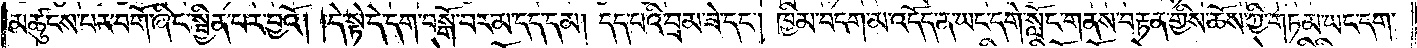མཚུངས་པར་བགོ་ཞིང་སྦྱིན་པར་བྱའོ། །དེ་སྟེ་དེ་དག་བསྒོ་བར་མ་དད་དམ། དད་པའི་བྲམ་ཟེ་དང༌། ཁྱིམ་བདག་མ་འདོད་ན་ཡང་དགེ་སློང་གནས་བརྟན་གྱིས་ཆོས་ཀྱི་གཏམ་ཡང་དག་
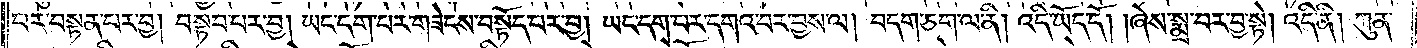པར་བསྟན་པར་བྱ། བསྟབ་པར་བྱ། ཡང་དག་པར་གཟེངས་བསྟོད་པར་བྱ། ཡང་དག་པར་དགའ་བར་བྱས་ལ། བདག་ཅག་ལ་ནི། འདི་ཡོད་དོ། །ཞེས་སྨྲ་བར་བྱ་སྟེ། འདི་ནི། ཀུན་
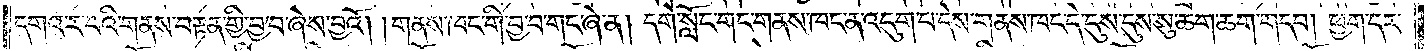དགའ་ར་བའི་གནས་བརྟན་གྱི་བྱ་བ་ཞེས་བྱའོ། །གནས་ཁང་གི་བྱ་བ་གང་ཞེ་ན། དགེ་སློང་གང་གནས་ཁང་ན་འདུག་པ་དེས་གནས་ཁང་དེ་དུས་དུས་སུ་ཆག་ཆག་གདབ། ཕྱག་དར་
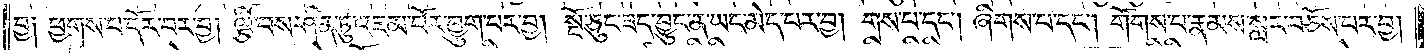བྱ༑ ཕྱགས་པ་དོར་བར་བྱ། ལྕི་བས་ཤིན་ཏུ་འཇམ་པོར་བྱུག་པར་བྱ། སྔོ་ཅུང་ཟད་བྱུང་ན་ཡང་མེད་པར་བྱ། གས་པ་དང༌། ཞིགས་པ་དང༌། གོགས་པ་རྣམས་སླར་བཅོས་པར་བྱ།
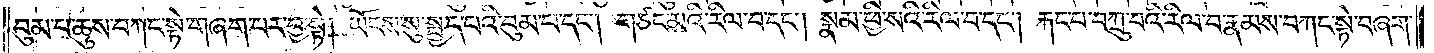བུམ་པ་ཆུས་བཀང་སྟེ་གཞག་པར་བྱ་སྟེ། ཡོངས་སུ་སྤྱད་པའི་བུམ་པ་དང༌། གཙང་མའི་རིལ་བ་དང༌། སྣམ་ཕྱི་སའི་རིལ་བ་དང༌། རྐང་པ་བཀྲུ་བའི་རིལ་བ་རྣམས་བཀང་སྟེ་བཞག་
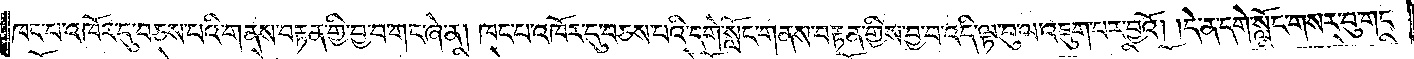པ་དེ་ནི། གནས་ཁང་གི་བྱ་བ་ཞེས་བྱའོ། །གནས་ཁང་གི་གནས་བརྟན་གྱི་བྱ་བ་གང་ཞེ་ན། གནས་ཁང་གི་དགེ་སློང་གནས་བརྟན་གྱིས་བྱ་བ་འདི་ལྟ་བུ་ལ་འཇུག་པར་བྱའོ། ། དེ་ན་དགེ་སློང་གསར་བུ་གང་
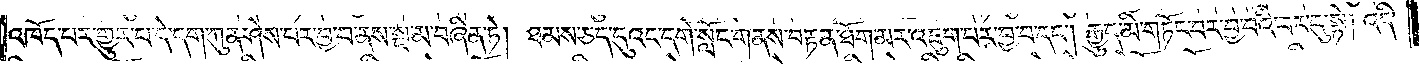དགེ་སློང་གསར་བུ་གང་དེ་ན་འཁོད་པར་གྱུར་པ་དེ་དག་ཤེས་པར་བྱ་བ་ནས་སྔ་མ་བཞིན་ཏེ། དགེ་སློང་གནས་བརྟན་གྱིས་ཐམས་ཅད་ལ་ཐོག་མར་འཇུག་པར་བྱ། རྒྱུད་མི་གཏང་། འདི་
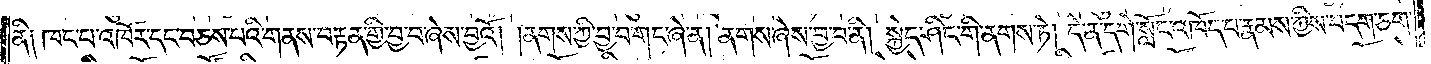ནི། ཁང་པ་འཁོར་དང་བཅས་པའི་གནས་བརྟན་གྱི་བྱ་བ་ཞེས་བྱའོ། །ནགས་ཀྱི་བྱ་བ་གང་ཞེ་ན། ནགས་ཞེས་བྱ་བ་ནི། སྐྱེད་ཤིང་གི་ནགས་ཏེ། དེ་ན་དགེ་སློང་འཁོད་པ་རྣབམས་ཀྱིས་བདག་ཅག་
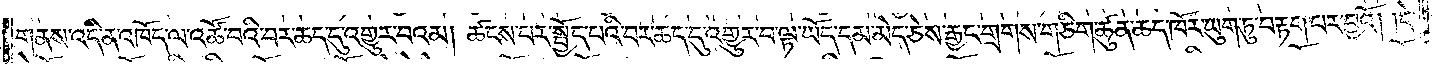གནས་འདི་ན་འཁོད་ལ་འཚོ་བའི་བར་ཆད་དུ་འགྱུར་བའམ། ཚངས་པར་སྤྱོད་པའི་བར་ཆད་དུ་འགྱུར་བ་ལྟ་ཡོད་དམ་མེད་ཅེས་རྒྱང་གྲགས་གཅིག་ཚུན་ཆད་ཁོར་ཡུག་ཏུ་བརྟག་པར་བྱའོ། །དེ་
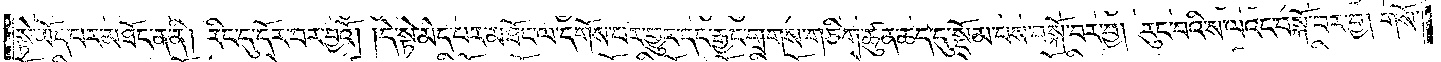སྟེ་ཡོད་པར་མཐོང་ན་ནི། རིང་དུ་དོར་བར་བྱའོ། །དེ་སྟེ་མེད་པར་མཐོང་ལ་དགོས་པར་བྱུང་དང་རྒྱང་གྲགས་གཅིག་ཚུན་ཆད་དུ་སྡོམ་པས་བསྐོ་བར་བྱ། རུང་བའི་ས་ལའང་བསྐོ་བར་བྱ། གསོ་
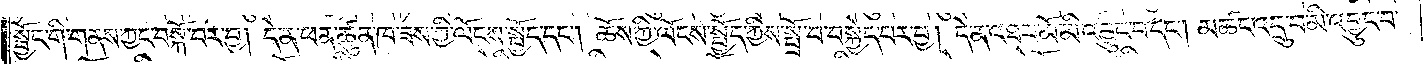སྦྱོང་གི་གནས་ཀྱང་བསྐཀོ་བར་བྱ། དེ་ན་ཕན་ཚུན་ཁ་ཟས་ཀྱི་ལོངས་སྤྱོད་དང་། ཆོས་ཀྱི་ལོངས་སྤྱོད་ཀྱིས་སྤྲོ་བ་བསྐྱེད་པར་བྱ། དེ་ན་འཐར་མོ་མི་འཕྱུང་བ་དང་། མཚང་འདྲུ་བ་མི་འབྱུང་བ་
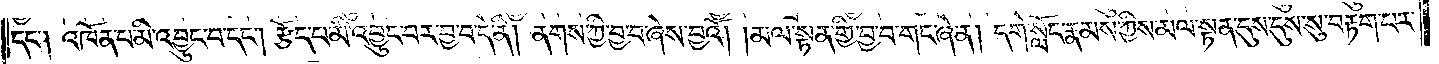དང་། འཁོན་པ་མི་འབྱུང་བ་དང་། རྩོད་པ་མི་འབྱུང་བར་བྱ་བ་དེ་ནི། ནགས་ཀྱི་བྱ་བ་ཞེས་བྱའོ། །མལ་སྟན་གྱི་བྱ་བ་གང་ཞེ་ན། དགེ་སློང་རྣམས་ཀྱིས་མལ་སྟན་དུས་དུས་སུ་བརྟག་པར་
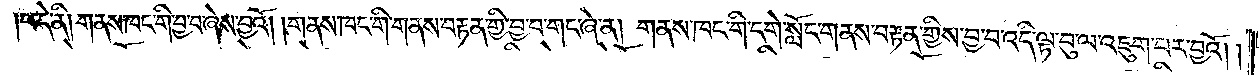།བ་དེ་ནི། གནས་ཁང་གི་བྱ་བ་ཞེས་བྱའོ། གནས་ཁང་གི་གནས་བརྟན་གྱི་བྱ་བ་གང་ཞེ་ན། གནས་ཁང་གི་དགེ་སློང་གནས་བརྟན་གྱིས་བྱ་བ་འདི་བུ་ལ་འཇུག་པར་བྱ་འོ། །
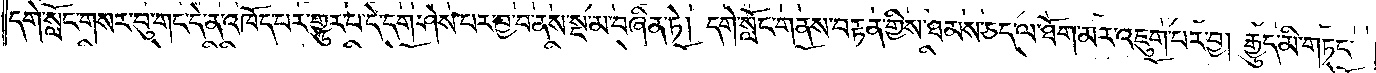དགེ་སློང་གསར་བུ་གང་དེ་ན་འཁོད་པར་གྱུར་པ་དེ་དག་ཤེས་པར་བྱ་བ་ནས་སྔ་མ་བཞིན་ཏེ། དགེ་སློང་གནས་བརྟན་གྱིས་ཐམས་ཅད་ལ་ཐོག་མར་འཇུག་པར་བྱ། རྒྱུད་མི་གཏང་
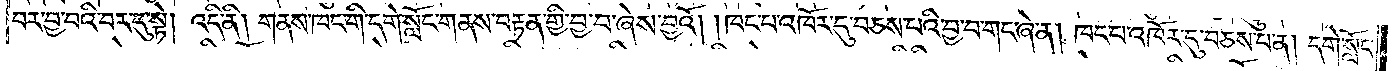བར་བྱ་བའི་བར་དུ་སྟེ། འདི་ནི། གནས་ཁང་གི་དགེ་སློང་གནས་བརྟན་གྱི་བྱ་བ་ཞེས་བྱའོ། །ཁང་པ་འཁོར་དུ་བཅས་པའི་བྱ་བ་གང་ཞེ་ན། ཁང་པ་འཁོར་དུ་བཅས་པ་ན། དགེ་སློང་
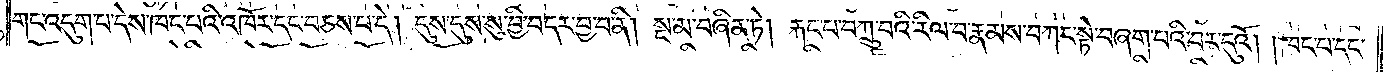གང་འདུག་པ་དེས་ཁང་པའི་འཁོར་དང་བཅས་པ་དེ། དུས་དུས་སུ་བྱི་བདར་བྱ་བ་ནི། སྔ་མ་བཞིན་ཏེ། རྐང་པ་བཀྲུ་བའི་རིལ་བ་རྣམས་བཀང་སྟེ་བཞག་པའི་བར་དུའོ། །ཁང་པ་དང་
